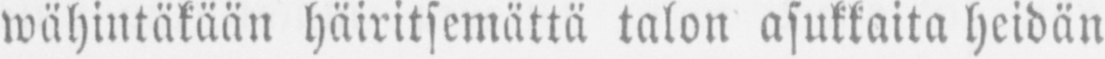wähintäkään häiritsemättä talon asukkaita heidän
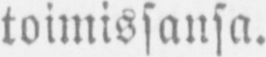toimissansa.
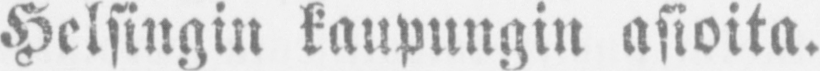Helsingin kaupungin asioita.
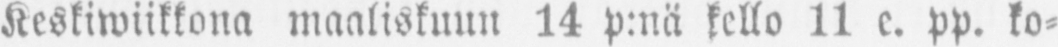Keskiwiikkona maaliskuun 14 p:nä kello 11 e. pp. ko-
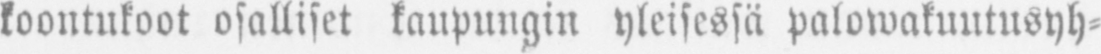koontukoot osalliset kaupungin yleisessä palowakuutusyh-
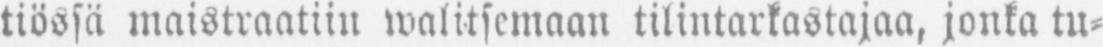tiössä maistraatiin walitsemaan tilintarkastajaa, jonka tu-
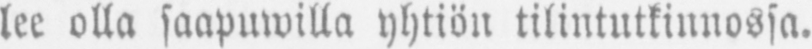lee olla saapuwilla yhtiön tilintutkinnossa.
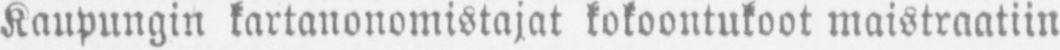Kaupungin kartanonomistajat kokoontukoot maistraatiin
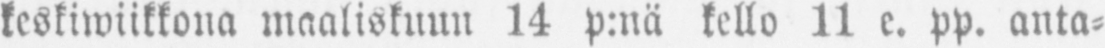keskiwiikkona maaliskuun 14 p:nä kello 11 e. pp. anta-
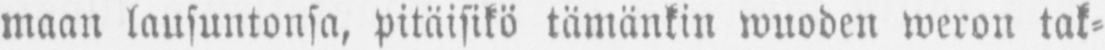maan lausuntonsa, pitäisikö tämänkin wuoden weron tak-
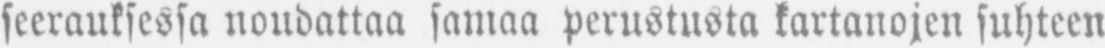seerauksessa noudattaa samaa perustusta kartanojen suhteen
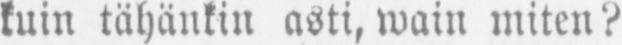kuin tähänkin asti, wain miten?
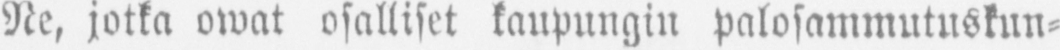Ne, jotka owat osalliset kaupungin palosammutuskun-
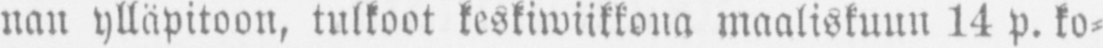nan ylläpitoon, tulkoot keskiwiikkona maaliskuun 14 p. ko-
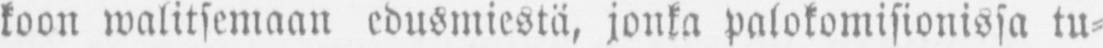koon walitsemaan edusmiestä, jonka palokomisionissa tu-
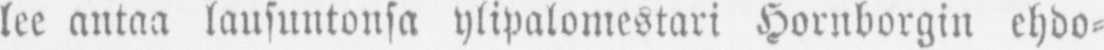lee antaa lausuntonsa ylipalomestari Hornborgin ehdo-
